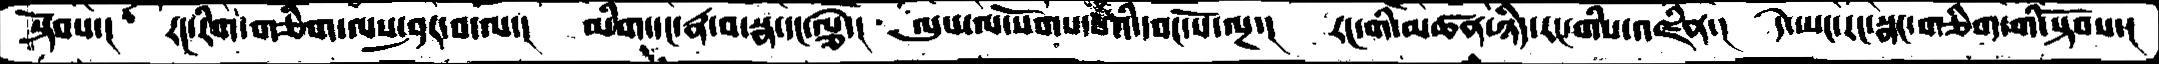སྟོབས་།  རང་རིག་གཅིག་ལས་ཤར་བ་ལ་།  མིག་དང་རྣ་བ་སྣ་དང་ལྕེ་།  ལུས་ལ་སོགས་པའི་དབང་པོ་ལྔ་།  རང་གི་མཚན་ཉིད་རང་གིས་འཛིན་།  དེ་ཡང་རང་སྣང་གཅིག་གི་སྟོབས་།
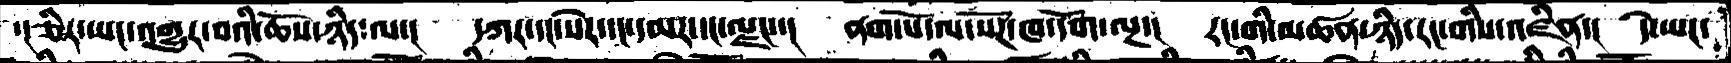་།ཅིར་ཡང་འགྱུར་བའི་ཆོས་ཉིད་ལ་།   དཀར་དང་སེར་དང་དམར་དང་ལྗང་་།   ནག་པོ་ལ་སོཌ་ཁ་དོག་ལྔ་།   རང་གི་མཚན་ཉིད་རང་གིས་འཛིན་།   དེ་ཡང་
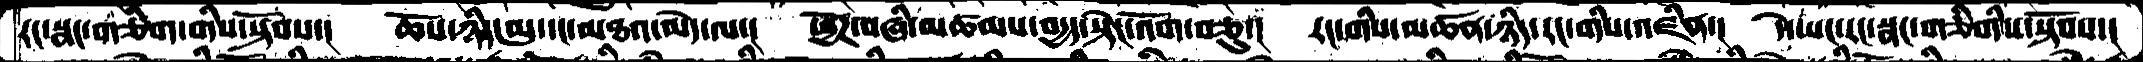རང་སྣང་གཅིག་གིས་སྟོབས་།   ཆོས་ཉིད་མུ་དང་མཐའ་མེད་ལ་།    ཕྱོཌ་བཞི་མཚམས་བདྱད་སྟེང་འོག་བཅུ་།   རང་གིས་མཚན་ཉིད་རང་གིས་འཛིན་།   དེ་ཡང་རང་སྣང་གཅིགིས་སྟོབས་།
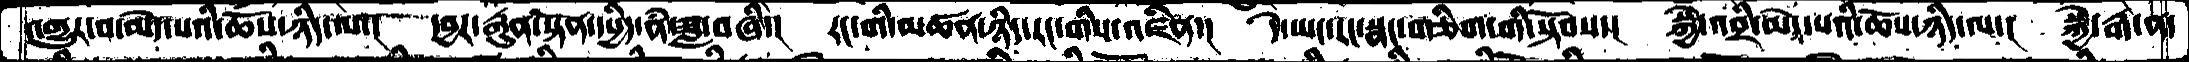འགྱུར་བ་མེད་པའི་ཆོས་ཉིད་ལ་།  དབྱར་རྒུན་སྟོན་དཔྱིད་ནཾ་ཟླ་བཞི་།  རང་གི་མཚན་ཉིད་རང་གིས་འཛིན་།  དེ་ཡང་རང་སྣང་གཅིག་གི་སྟོབས་།  སྐྱེ་འབྲི་མེད་པའི་ཆོས་ཉིད་ལ་།  སྐྱེ་རྒ་ན་
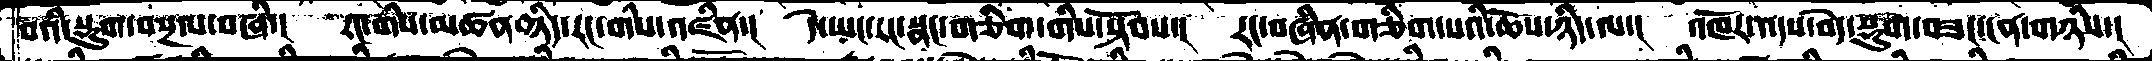བའི་སྡུག་བསྔལ་བཞི་།  རང་གིས་མཚན་ཉིད་རང་གིས་འཛིན་།  དེ་ཡང་རང་སྣང་གཅིག་གིས་སྟོབས་།  རང་བཞིན་གཅིག་པའི་ཆོས་ཉིད་ལ་།   འཁོར་འདས་བདེ་སྡུག་བཟང་ངན་གཉིས་།
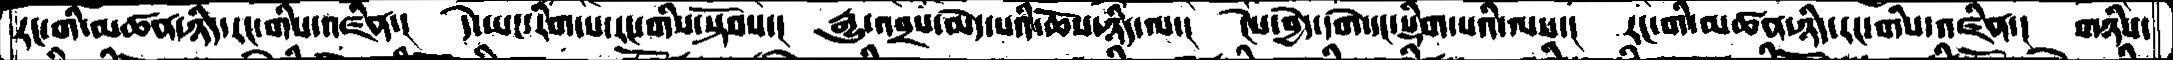རང་གི་མཚན་ཉིད་རང་གིས་འཛིན་།  དེ་ཡང་རིག་པ་རང་གིས་སྟོབས་།  རྒྱུ་འབྲས་མེད་པའི་ཆོས་ཉིད་ལ་།  ངེས་བྱེད་དགེ་དང་སྡིག་པའི་ལས་།  རང་གི་མཚན་ཉིད་རང་གིས་འཛིན་།  གཉིས་
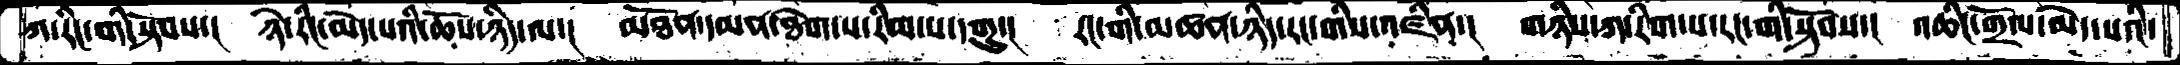ཀ་རིང་གི་སྟོབས་།  ཉེ་རིང་མེད་པའི་ཆོས་ཉིད་ལ་།  མཐོན་དམན་ཐེག་པ་རིམ་པ་དགུ་།  རང་གི་མཚན་ཉིད་རང་གིས་འཛིན་།  གཉིས་ཀ་རིག་པ་རང་གི་སྟོབས་།  འཆིང་གྲོལ་མེད་པའི་
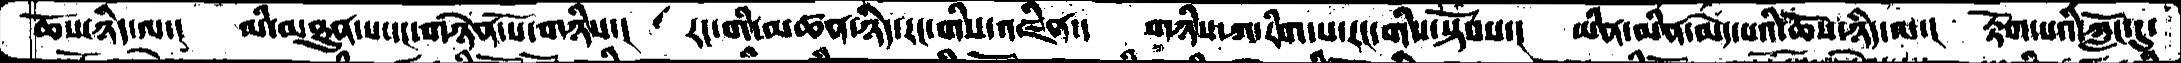ཆོས་ཉིད་ལ་།  མི་མཐུན་པ་དང་གཉེན་པོ་གཉིས་།  རང་གི་མཚན་ཉིད་རང་གིས་འཛིན་།  གཉིས་ཀ་རིག་པ་རང་གིས་སྟོབས་།  ཡིན་མིན་མེད་པའི་ཆོས་ཉིད་ལ་།  རྟོག་པའི་ཀློང་དུ་
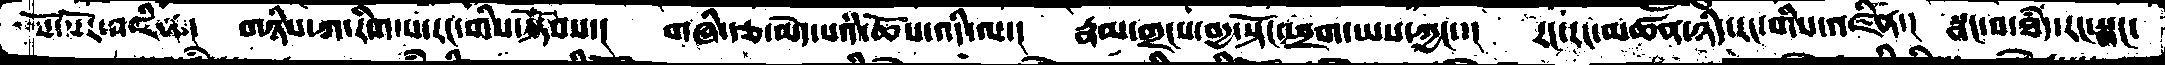སོ་སོར་འཛིན་།  གཉིས་ཀ་རིག་པ་རང་གིས་སྟོབས་།  གཞི་རྩ་མེད་པའི་ཆོས་འདི་ལ་།  རྣམ་གྲངས་བདྱ་སྟོང་ཕྲག་ཡས་ཀྱང་་།  རང་དང་མཚན་ཉིད་རང་གིས་འཛིན་།  སྣང་བ་ཐཾད་རང་སྣང་
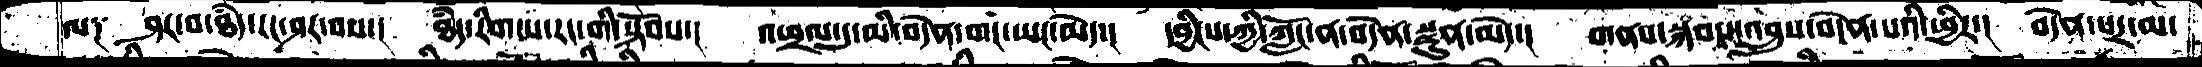ལ༑   ཤར་བ་ཐཾད་རང་ཤར་བས་།  ཐཾད་རིག་པ་རང་གི་སྟོབས་།  འཕྲལ་དུ་མི་བདེན་གང་ཡང་མེད་།  དབྱིངས་ཀྱི་ཀློང་ན་བདེན་སྫུན་མེད་།  གནས་སྐབས་འབྲུས་བདེན་པའི་ཕྱིར་།  བདེན་པར་མ་
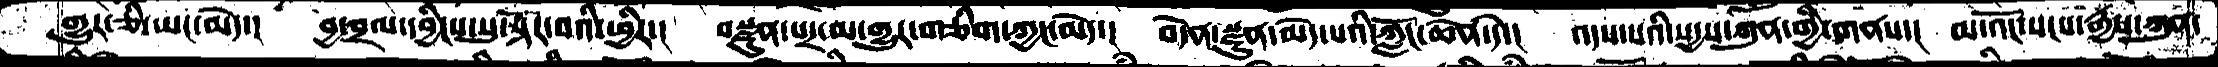གྱུར་ཅི་ཡང་མེད་།  བྱ་བྲལ་དབྱིངས་སུ་སྟོར་བའི་ཕྱིར་།  བསྫུན་པར་མ་གྱུར་གཅིག་ཀྱང་མེད་།  བདེན་སྫུན་མེད་པའི་ཀློང་ཆེན་དེ་།  འདས་པའི་སདྱས་ཀུན་གྱི་གནས་།  མ་འོང་སངས་རྒྱས་ཀུན་
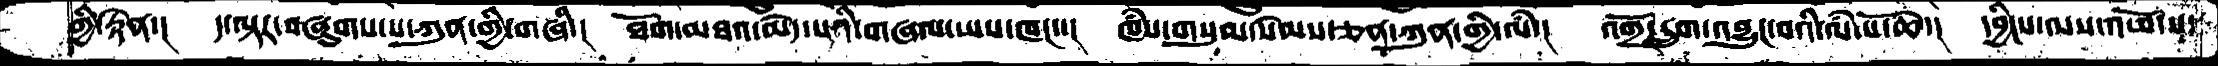གྱི་རྟེན་།  ད་ལྟར་བཞུགས་པ་ཀུན་གྱི་གཞི་།  ཐོག་མཐའ་མེད་པའི་གཞལ་ཡས་ཁང་་།  ཁཾ་གསུམ་སེམས་ཅན་ཀུན་གྱི་ལཾ་།  འགྲོ་དྲུག་འབྱུང་བའི་ལཾ་པོ་ཆེ་།  དབྱིངས་ལས་འཕོ་ས་
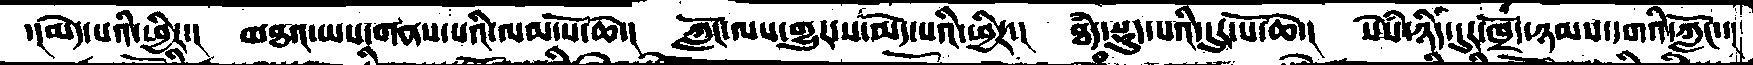་།མེད་པའི་ཕྱིར་།  མཐའ་ཡས་གནས་པའི་ལམ་པོ་ཆེ་།  ཀློང་ལས་གྱུར་ས་མེད་པའི་ཕྱིར་།  ཐཾད་སྡུད་པའི་དུར་པོ་ཆེ་།   སེསཾ་ཉིད་དུར་ཁྲོད་ཉམས་དགའི་ཀློང་་།
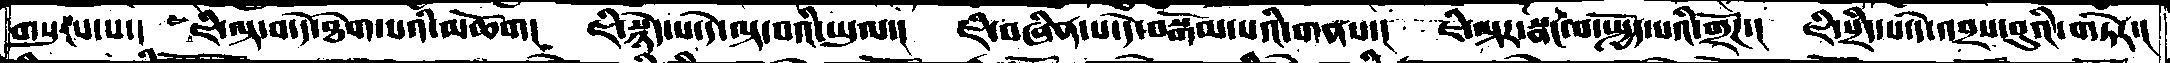གསུངས་པ་།  ཇི་ལྟ་བ་དེ་ཐེག་པའི་མཆོག།  ཇི་སྙེད་པ་དེ་ལྟ་བའི་ཡུལ་།  ཇི་བཞིན་པ་དེ་བསྒོམ་པའི་གནས་།  ཇི་ལྟར་སྣང་བ་སྤྱོད་པའི་གྲོཌ་།  ཇི་སྲིད་པ་དེ་འབྲས་བུའི་གཏེེེར་།
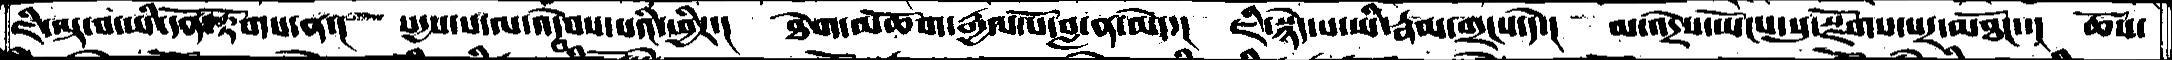ཇི་ལྟ་བ་ཡི་དོན་རྟོགས་ན་།  སདྱས་ས་ལ་འདེབས་པའི་ཕྱིར་།  ཐེག་མཆོག་རྒྱལ་པོ་བླ་ན་མེད་།  ཇི་སྙེད་པ་ཡི་རྣམ་གྲངས་དེ་།  མ་འདྲེས་ཡོངས་སུ་སྫོགས་པར་མཐོང་་།  ཆོས་
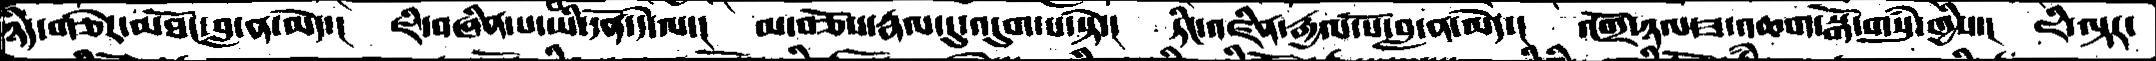ཉིད་གཅེར་མཐོང་བླ་ན་མེད་།  ཇི་བཞིན་པ་ཡི་དོན་དེ་ལ་།  མ་བཅོས་རྣལ་དུ་འདུག་པ་སྟེ་།  ཏིང་འཛིན་རྒྱལ་པོ་བླ་ན་མེད་།  འགྲོ་ཉལ་ཟ་འཆག་སྒོ་གསུཾ་གྱིས་།  ཇི་ལྟར་
